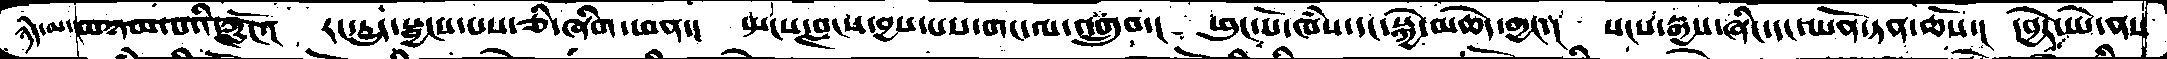ཉིད་མ་མཉམ་པའི་ཀློང་།  རང་དྱུད་སྦྱངས་པས་ཅི་ཞིག་ཕན་།  སྤངས་བླངས་བྱས་པས་གང་ལ་འགྲུབ་།  ཕུང་པོ་ཁཾས་དང་སྐྱེ་མཆེད་གྱང་།  སངས་རྒྱས་ཞིང་དང་ཡོན་ཏན་ཆོས་།  དབྱེར་ཡེ་ནས
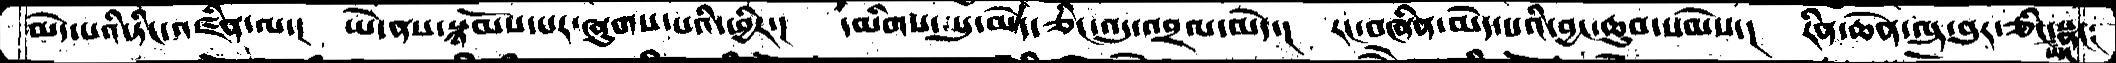མེད་པའི་ཏིང་འཛིན་ལ་།  ཡེ་ནས་སྙོམས་པར་ཞུགས་པའི་ཕྱིར་།  དམིགས་སུ་མེད་ཅིང་འདུ་འབྲལ་མེད་།  རང་བཞིན་མེད་པའི་བྱང་ཆུབ་སེམས་།  རིན་ཆེན་ལྟ་བུར་ཅིར་ཡང་སྣང་།
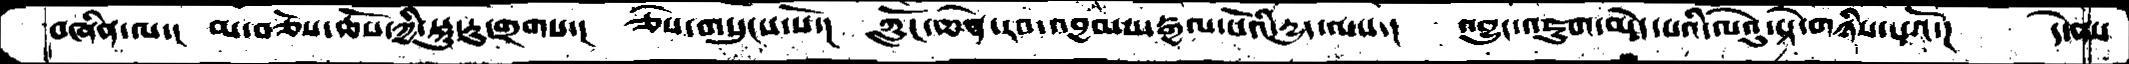བཞིན་ལ་། མ་བཅོས་ཆོས་ཀྱི་སྐུ་རུ་གྲགས་། ཅེས་གསུངས་སོ་། ཀློང་ཆེན་རབ་འབྱམས་རྒྱལ་པོའི་རྒྱུད་ལས་། འབྱུང་འཇུག་མེད་པའི་ལེའུ་སྟེ་གཉིས་པའོ་། དེ་ནས་
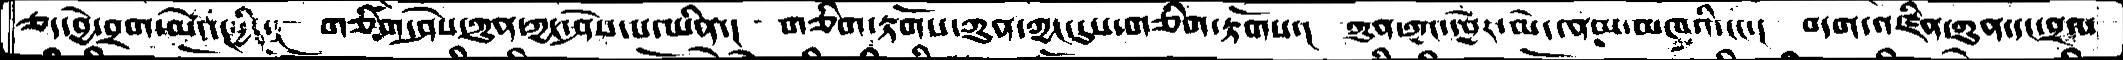ཅད་བྱེ་བྲག་མེད་།  གཅིག་ཤེས་ཀུན་ཀྱང་ཤེས་པ་ཡིན་། གཅིག་རྟོགས་ཀུན་ཀྱང་དུས་གཅིག་རྟོགས་།  ཀུན་ཀྱང་དབྱེར་མེད་ནམ་མཁའི་ངང་། བདག་འཛིན་ཀུན་དང་བྲལ
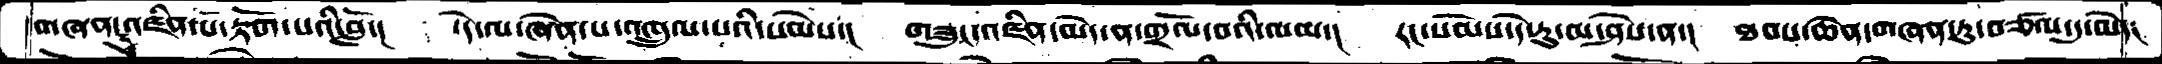གཞན་དུ་འཛིན་པ་རྟོག་པའི་བློ་།  དེ་ལ་ཞེན་པ་འཁྲུལ་པའི་སེམས་།  གཟུང་འཛིན་མེད་ན་གྲོ་བའི་ལམ་།  རང་སེམས་དེ་རུ་མ་ཤེས་ན་།  ཐབས་ཆེན་གཞན་ཏུ་བཙལ་དུ་མེད་།
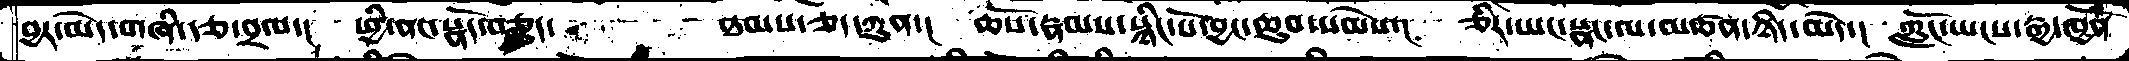བྱར་མེད་གཞི་རྩ་བྲལ་།  ཕྱི་ནང་སྣོད་བཅུད་     ཐམས་ཅད་ཀུན་།  ཆོས་རྣམས་སྙིང་པོ་བྱང་ཆུབ་སེམས་། ཅིར་ཡང་སྣང་ལ་མཚན་ཉིད་མེད་།  ཀློང་ཡངས་རྒྱ་ཁྱོན་
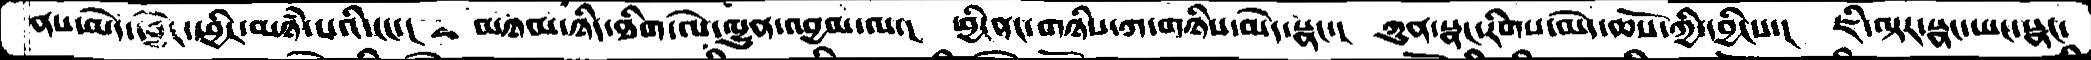ནས་མེད་ཕྱིར་མཉཾ་པའི་ངང་།  མཉམ་ཉིད་ཐིག་ལེ་ལྷུན་འབྱམ་ལ་།  ཕྱི་ནང་གཉིས་ཀ་གཉིས་མེད་སྣང་།  ཀུན་སྣང་རིགས་མེད་ཆོས་ཀྱི་དབྱིངས་།  ཇི་ལྟར་སྣང་ཡང་སྣང་
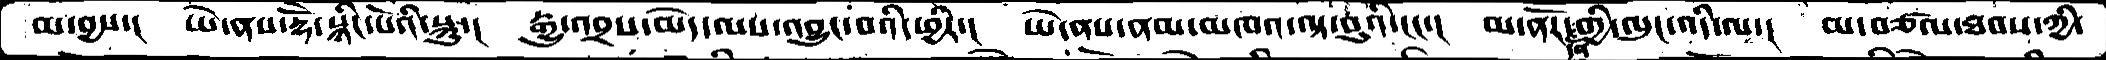མ་བྱས་།  ཡེ་ནས་རྡོེ་སྙིང་པོའི་སྐུ་།  རྒྱུ་འབྲས་མེད་ལས་འབྱུང་བའི་ཕྱིར་།  ཡེ་ནས་ནམ་མཁའ་ལྟ་བུའི་ངང་།  མ་ནོར་དོན་གྱི་ལུང་འདི་ལ་།  མ་བཙལ་ཐབས་ཀྱི་
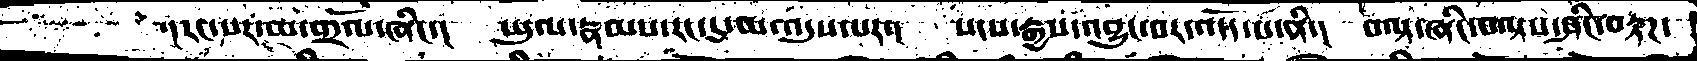དངརང་སར་མ་གྲོལ་ཞིང་།  ཡུལ་རྣམས་རང་དུ་མ་འདུས་པར་།  སངས་རྒྱས་འབྱུང་བར་འདོད་པ་ནི་།  བལྟ་ཞིང་བལྟས་ཤིང་བརྟཌ་ །
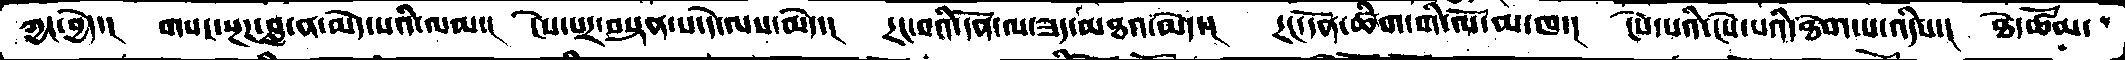ཀྱང་བྱེད་། གསང་སྔཌ་བླ་ན་མེད་པའི་ལམ་། ངེས་པར་བསྟན་པ་དེ་ལས་མེད་། དྲང་བའི་དོན་ལ་ཟད་མཐའ་མེད་། དྲང་དོན་ཚིག་གི་ལོ་མ་ཁ་། ངེས་པའི་ངེས་པའི་ཐེག་པ་འདིས་། ཐེ་ཚོམ་
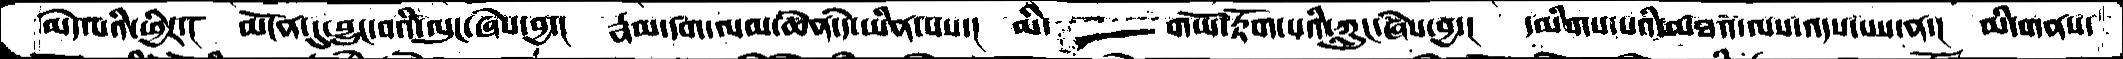མེད་པའི་ཕྱིར་། མངོན་དུ་བྱུང་བའི་ལུང་ཞེས་བྱ་། རྣམ་དག་ལམ་ཆེན་དེ་ཡིན་པས་། མི་་་་་་་་གཡོ་རྟོག་པའི་ཀླུང་ཞེས་བྱ་། དམིགས་པའི་མཐའ་ལས་འདས་པས་ན་། མི་གནས་
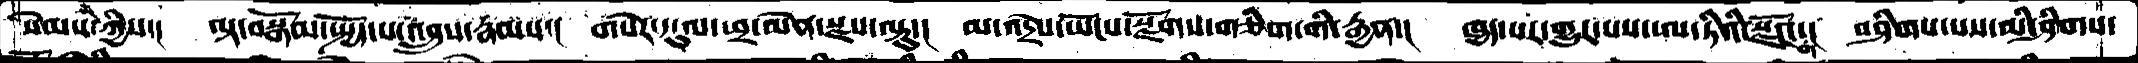སེམས་ཀྱིས་། ལྟ་བསྒོམ་སྤྱོད་པ་འབྲུས་རྣམས་། གསེར་དངུལ་ཕྲ་མེན་སྫས་ལྟུ་། མ་འདྲེས་ཡོངས་སྫོགས་གཅིག་གི་རྒྱན་། ཁྱད་པར་གྱུར་པས་ཨ་ཏིའི་སྫོགས། བཤིགས་པས་མི་ཤིགས་
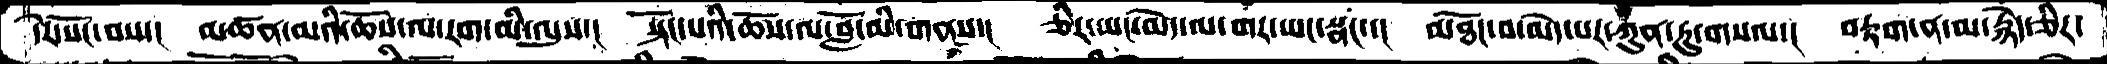དེར་སོང་བས་། མཚན་མའི་ཆོས་ལ་རག་མི་ལུས་། སྟོང་པའི་ཆོས་ལ་བློ་མི་གནས་། ཅིར་ཡང་མེད་ལ་གར་ཡང་སྣང་་། མཐོང་བ་མེད་པར་ཀུན་ཏུ་གསལ་། བརྟག་ན་མ་རྙེད་ཅིར་
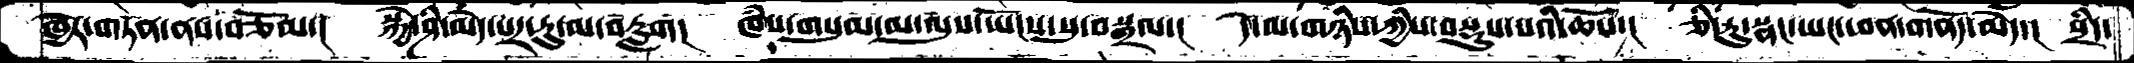ཁྱེར་གཏན་ནས་བཅོམ་།  སྐྱེ་ཤི་མེད་པར་རུ་མ་བརླག།  ཁཾས་གསུམ་མ་ལུས་ཡོངས་སུ་བསྒྲལ་།  དེ་ལ་གཉིས་ཀྱིས་བསྡུས་པའི་ཆོས་།  ཅི་རུ་སྣང་ཡང་ཕན་གནོད་མེད་།  སྲིད་
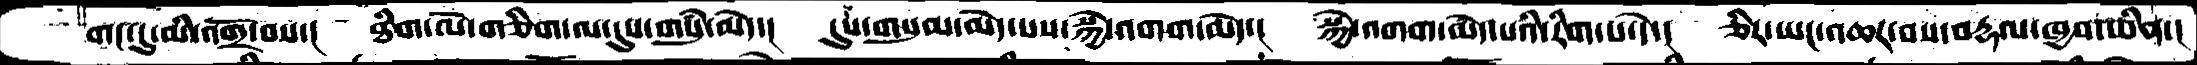གང་དུ་མི་འགྲོ་བས་།  ཐིག་ལེ་གཅིག་ལ་དུས་གསུཾ་མེད་།  དུས་གསུམ་མེད་པས་སྐྱེ་འགག་མེད་།  སྐྱེ་འགག་མེད་པའི་རིག་པ་དེ་།  ཅིར་ཡང་འཆར་བས་བརྡལ་ཁྱབ་ཡིན་།
